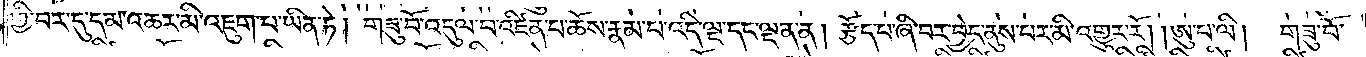གྱི་བར་དུ་དམ་འཆར་མི་འཇུག་པ་ཡིན་ཏེ། གཟུ་བོ་འདུལ་བ་འཛིན་པ་ཆོས་རྣམ་པ་འདི་ལྔ་དང་ལྡན་ན། རྩོད་པ་ཞི་བར་བྱེད་ནུས་པར་མི་འགྱུར་རོ། །ཨུ་པ་ལི། གཟུ་བོ་
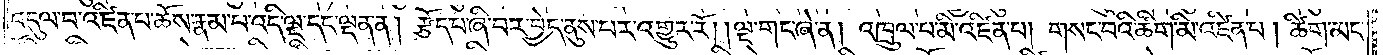འདུལ་བ་འཛིན་པ་ཆོས་རྣམ་པ་འདི་ལྔ་དང་ལྡན་ན། རྩོད་པ་ཞི་བར་བྱེད་ནུས་པར་འགྱུར་རོ། །ལྔ་གང་ཞེ་ན། འཁྲུལ་པ་མི་འཛིན་པ། གསང་བའི་ཚིག་མི་འཛིན་པ། ཚིག་མང་
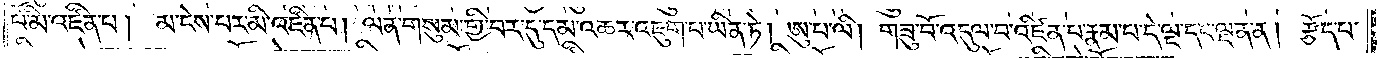པོ་མི་འཛིན་པ། མ་ངེས་པར་མི་འཛིན་པ། ལན་གསུམ་གྱི་བར་དུ་དམ་འཆར་འཇུག་པ་ཡིན་ཏེ། ཨུ་པ་ལི། གཟུ་བོ་འདུལ་བ་འཛིན་པ་རྣམ་པ་དེ་ལྔ་དང་ལྡན་ན། རྩོད་པ་
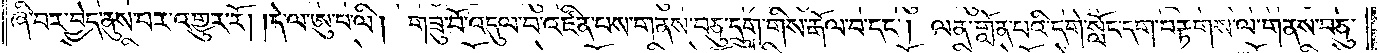ཞི་བར་བྱེད་ནུས་པར་འགྱུར་རོ། །དེ་ལ་ཨུ་པ་ལི། གཟུ་བོ་འདུལ་བ་འཛིན་པས་གནས་བཅུ་དྲུག་གིས་རྒོལ་བ་དང༌། ལན་གློན་པའི་དགེ་སློང་དག་བརྟགས་ལ་གནས་བཅུ་
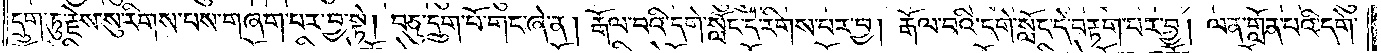དྲུག་ཏུ་རྗེས་སུ་རིགས་པས་གཞག་པར་བྱ་སྟེ། བཅུ་དྲུག་པོ་གང་ཞེ་ན། རྒོལ་བའི་དགེ་སློང་དེ་རིགས་པར་བྱ། རྒོལ་བའི་དགེ་སློང་དེ་བརྟག་པར་བྱ། ལན་གློན་པའི་དགེ་
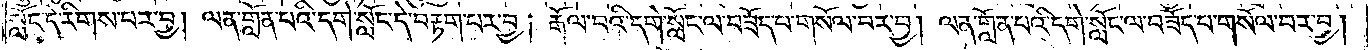སློང་དེ་རིགས་པར་བྱ། ལན་གློན་པའི་དགེ་སློང་དེ་བརྟག་པར་བྱ། རྒོལ་བའི་དགེ་སློང་ལ་བཟོད་པ་གསོལ་པར་བྱ། ལན་གློན་པའི་དགེ་སློང་ལ་བཟོད་པ་གསོལ་བར་བྱ།
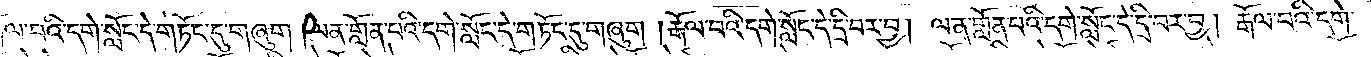རྒོལ་བའི་དགེ་སློང་དེ་གཏོང་དུ་གཞུག །ལན་གློན་པའི་དགེ་སློང་དེ་གཏོང་དུ་གཞུག །རྒོལ་བའི་དགེ་སློང་དེ་དྲི་བར་བྱ། ལན་གློན་པའི་དགེ་སློང་དེ་དྲི་པར་བྱ། རྒོལ་བའི་དགེ་
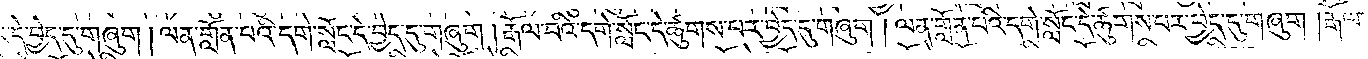སློང་དེ་བྱེད་དུ་གཞུག །ལན་གློན་པའི་དགེ་སློང་དེ་བྱེད་དུ་གཞུག །རྒོལ་བའི་དགེ་སློང་དེ་ཚུགས་པར་བྱེད་དུ་གཞུག །ལན་གློན་པའི་དགེ་སློང་དེ་ཚུགས་པར་བྱེད་དུ་གཞུག །རྒོལ་
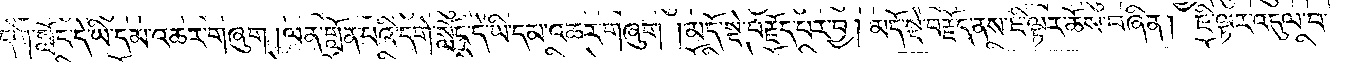དགེ་སློང་དེ་ཡི་དམ་འཆར་གཞུག །ལན་གློན་པའི་དགེ་སློང་དེ་ཡི་དམ་འཆར་གཞུག །མདོ་སྡེ་བརྗོད་པར་བྱ། མདོ་སྡེ་བརྗོད་ནས་ཇི་ལྟར་ཆོས་བཞིན། ཇི་ལྟར་འདུལ་བ་
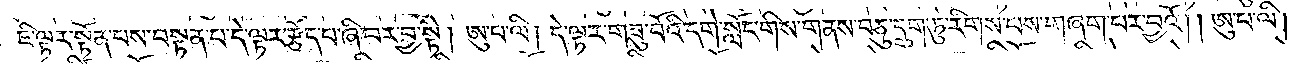བཞིན། ཇི་ལྟར་སྟོན་པས་བསྟན་པ་དེ་ལྟར་རྩོད་པ་ཞི་བར་བྱ་སྟེ། ཨུ་པ་ལི། དེ་ལྟར་གཟུ་བོའི་དགེ་སློང་གིས་གནས་བཅུ་དྲུག་ཏུ་རིགས་པས་གཞག་པར་བྱའོ། །ཨུ་པ་ལི།
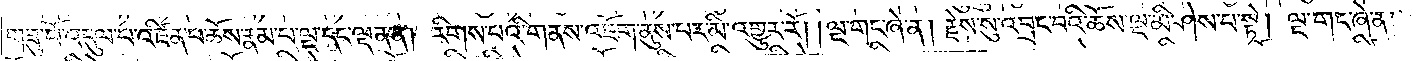གཟུ་བོ་འདུལ་བ་འཛིན་པ་ཆོས་རྣམ་པ་ལྔ་དང་ལྡན་ན། རིགས་པའི་གནས་འཇོག་ནུས་པར་མི་འགྱུར་རོ། །ལྔ་གང་ཞེ་ན། རྗེས་སུ་འབྲང་བའི་ཆོས་ལྔ་མི་ཤེས་པ་སྟེ། ལྔ་གང་ཞེ་ན།
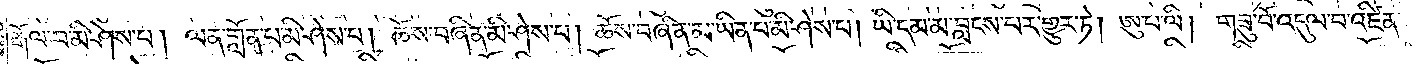རྒོལ་བ་མི་ཤེས་པ། ལན་གློན་པ་མི་ཤེས་པ། ཆོས་བཞིན་མི་ཤེས་པ། ཆོས་བཞིན་མ་ཡིན་པ་མི་ཤེས་པ། ཡི་དམ་མ་བླངས་པར་གྱུར་ཏེ། ཨུ་པ་ལི། གཟུ་བོ་འདུལ་བ་འཛིན་
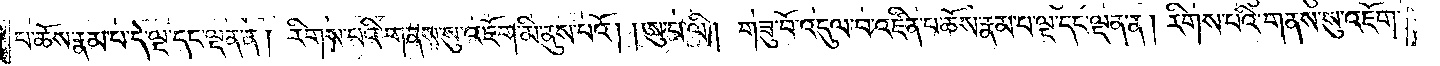པ་ཆོས་རྣམ་པ་དེ་ལྔ་དང་ལྡན་ན། རིགས་པའི་གནས་སུ་འཇོག་མི་ནུས་པའོ། །ཨུ་པ་ལི། གཟུ་བོ་འདུལ་བ་འཛིན་པ་ཆོས་རྣམ་པ་ལྔ་དང་ལྡན་ན། རིགས་པའི་གནས་སུ་འཇོག་
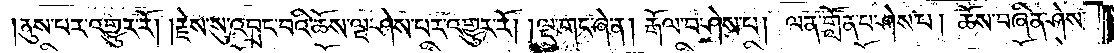ནུས་པར་འགྱུར་རོ། །རྗེས་སུ་འབྲང་བའི་ཆོས་ལྔ་ཤེས་པར་འགྱུར་རོ། །ལྔ་གང་ཞེ་ན། རྒོལ་བ་ཤེས་པ། ལན་གྲོན་པ་ཤེས་པ། ཆོས་བཞིན་ཤེས་
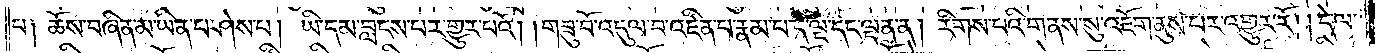པ༑ ཆོས་བཞིན་མ་ཡིན་པ་ཤེས་པ། ཡི་དམ་བླངས་པར་གྱུར་པའོ། །གཟུ་བོ་འདུལ་བ་འཛིན་པ་རྣམ་པ་དེ་ལྔ་དང་ལྡན་ན། རིགས་པའི་གནས་སུ་འཇོག་ནུས་པར་འགྱུར་རོ། །དེ་ལ་
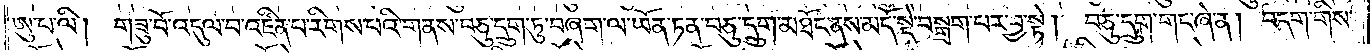ཨུ་པ་ལི། གཟུ་བོ་འདུལ་བ་འཛིན་པ་རིགས་པའི་གནས་བཅུ་དྲུག་ཏུ་བཞག་ལ་ཡོན་ཏན་བཅུ་དྲུག་མཐོང་ནས་མདོ་སྡེ་བསྒྲག་པར་བྱ་སྟེ། བཅུ་དྲུག་གང་ཞེ་ན། བདག་གིས་
